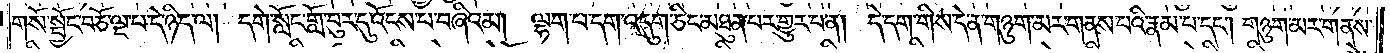གསོ་སྦྱོང་བཅོ་ལྔ་པ་དེ་ཉིད་ལ། དགེ་སློང་གློ་བུར་དུ་འོངས་པ་བཞིའམ། ལྷག་པ་དག་འདུག་ཅིང་མཐུན་པར་གྱུར་པ་ན། དེ་དག་གིས་དེ་ན་གཉུག་མར་གནས་པའི་རྣམ་པ་དང༌། གཉུག་མར་གནས་
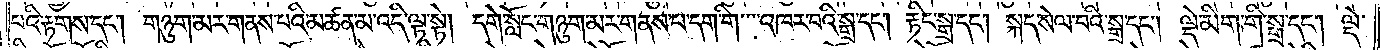པའི་རྟགས་དང༌། གཉུག་མར་གནས་པའི་མཚན་མ་འདི་ལྟ་སྟེ། དགེ་སློང་གཉུག་མར་གནས་པ་དག་གི་འཁར་བའི་སྒྲ་དང༌། རྟིང་སྒྲ་དང༌། སྐད་སེལ་བའི་སྒྲ་དང༌། ལྡེ་མིག་གི་སྒྲ་དང༌། ལྡེ་
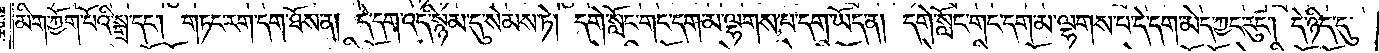མིག་ཀྱོག་པོའི་སྒྲ་དང༌། གཏང་རག་དག་ཐོས་ན། དེ་དག་འདི་སྙམ་དུ་སེམས་ཏེ། དགེ་སློང་གང་དག་མ་ལྷགས་པ་དག་ཡོད་ན། དགེ་སློང་གང་དག་མ་ལྷགས་པ་དེ་དག་མེད་ཀྱང་རུང༌། དེ་ཉིད་དུ་
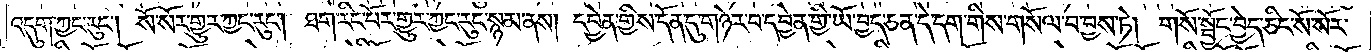འདུག་ཀྱང་རུང༌། སོ་སོར་གྱུར་ཀྱང་རུང༌། ཐག་རིང་པོར་གྱུར་ཀྱང་རུང་སྙམ་ནས། དབྱེན་གྱིས་དོན་དུ་གཉེར་བ་དབྱེན་གྱི་ཡོ་བྱད་ཅན་དེ་དག་གིས་གསོལ་བ་བྱས་ཏེ། གསོ་སྦྱོང་བྱེད་ཅིང་སོ་སོར་
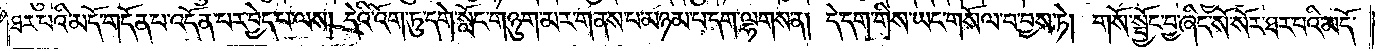ཐར་པའི་མདོ་གདོན་པ་འདོན་པར་བྱེད་པ་ལས། དེའི་འོག་ཏུ་དགེ་སློང་གཉུག་མར་གནས་པ་མཉམ་པ་དག་ལྷགས་ན། དེ་དག་གིས་ཡང་གསོལ་བ་བྱས་ཏེ། གསོ་སྦྱོང་བྱ་ཞིང་སོ་སོར་ཐར་པའི་མདོ་
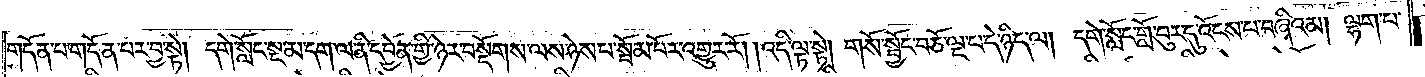གདོན་པ་གདོན་པར་བྱ་སྟེ། དགེ་སློང་སྔ་མ་དག་ལ་ནི་དབྱེན་གྱི་ཉེར་བསྡོགས་ལས་ཉེས་པ་སྦོམ་པོར་འགྱུར་རོ། །འདི་ལྟ་སྟེ། གསོ་སྦྱོང་བཅོ་ལྔ་པ་དེ་ཉིད་ལ། དགེ་སློང་གློ་བུར་དུ་འོངས་པ་བཞིའམ། ལྷག་པ་
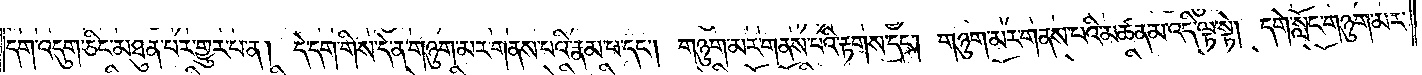དག་འདུག་ཅིང་མཐུན་པར་གྱུར་པ་ན། དེ་དག་གིས་དེ་ན་གཉུག་མར་གནས་པའི་རྣམ་པ་དང༌། གཉུག་མར་གནས་པའི་རྟགས་དང༌། གཉུག་མར་གནས་པའི་མཚན་མ་འདི་ལྟ་སྟེ། དགེ་སློང་གཉུག་མར་
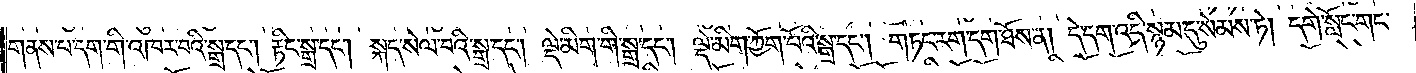གནས་པ་དག་གི་འཁར་བའི་སྒྲ་དང༌། རྟིང་སྒྲ་དང༌། སྐད་སེལ་བའི་སྒྲ་དང༌། ལྡེ་མིག་གི་སྒྲ་དང༌། ལྡེ་མིག་ཀྱོག་པོའི་སྒྲ་དང༌། གཏང་རག་དག་ཐོས་ན། དེ་དག་འདི་སྙམ་དུ་སེམས་ཏེ། དགེ་སློང་གང་
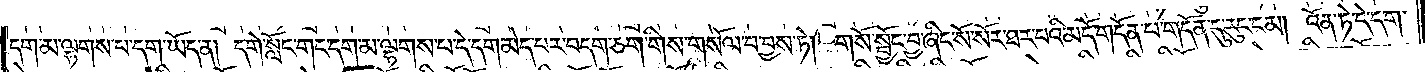དག་མ་ལྷགས་པ་དག་ཡོད་ན། དགེ་སློང་གང་དག་མ་ལྷགས་པ་དེ་དག་མེད་པར་བདག་ཅག་གིས་གསོལ་བ་བྱས་ཏེ། གསོ་སྦྱོང་བྱ་ཞིང་སོ་སོར་ཐར་པའི་མདོ་གདོན་པ་གདོན་དུ་རུང་ངམ། འོན་ཏེ་དེ་དག་
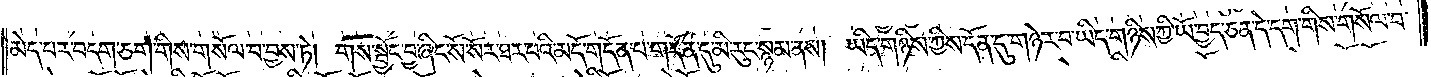མེད་པར་བདག་ཅག་གིས་གསོལ་བ་བྱས་ཏེ། གསོ་སྦྱོང་བྱ་ཞིང་སོ་སོར་ཐར་པའི་མདོ་གདོན་པ་གདོན་དུ་མི་རུང་སྙམ་ནས། ཡིད་གཉིས་ཀྱིས་དོན་དུ་གཉེར་བ་ཡིད་གཉིས་ཀྱི་ཡོ་བྱད་ཅན་དེ་དག་གིས་གསོལ་བ་
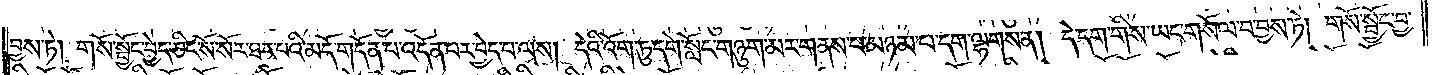བྱས་ཏེ། གསོ་སྦྱོང་བྱེད་ཅིང་སོ་སོར་ཐར་པའི་མདོ་གདོན་པ་འདོན་པར་བྱེད་པ་ལས། དེའི་འོག་ཏུ་དགེ་སློང་གཉུག་མར་གནས་པ་མཉམ་པ་དག་ལྷགས་ན། དེ་དག་གིས་ཡང་གསོལ་བ་བྱས་ཏེ། གསོ་སྦྱོང་བྱ་
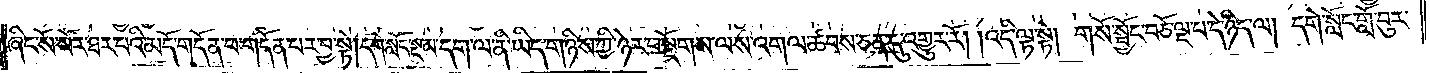ཞིང་སོ་སོར་ཐར་པའི་མདོ་གདོན་པ་གདོན་པར་བྱ་སྟེ། དགེ་སློང་སྔ་མ་དག་ལ་ནི་ཡིད་གཉིས་ཀྱི་ཉེར་བསྡོགས་ལས་འགལ་ཚབས་ཅན་དུ་འགྱུར་རོ། །འདི་ལྟ་སྟེ། གསོ་སྦྱོང་བཅོ་ལྔ་པ་དེ་ཉིད་ལ། དགེ་སློང་གློ་བུར་
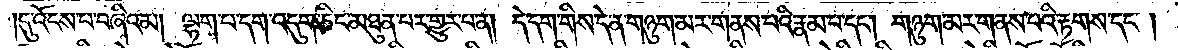དུ་འོངས་པ་བཞིའམ། ལྷག་པ་དག་འདུག་ཅིང་མཐུན་པར་གྱུར་པ་ན། དེ་དག་གིས་དེ་ན་གཉུག་མར་གནས་པའི་རྣམ་པ་དང༌། གཉུག་མར་གནས་པའི་རྟགས་དང༌།
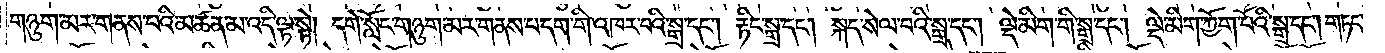གཉུག་མར་གནས་པའི་མཚན་མ་འདི་ལྟ་སྟེ། དགེ་སློང་གཉུག་མར་གནས་པ་དག་གི་འཁར་བའི་སྒྲ་དང༌། རྟིང་སྒྲ་དང༌། སྐད་སེལ་བའི་སྒྲ་དང༌། ལྡེ་མིག་གི་སྒྲ་དང༌། ལྡེ་མིག་ཀྱོག་པོའི་སྒྲ་དང༌། གཏང་
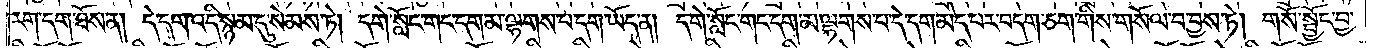རག་དག་ཐོས་ན། དེ་དག་འདི་སྙམ་དུ་སེམས་ཏེ། དགེ་སློང་གང་དག་མ་ལྷགས་པ་དག་ཡོད་ན། དགེ་སློང་གང་དག་མ་ལྷགས་པ་དེ་དག་མེད་པར་བདག་ཅག་གིས་གསོལ་བ་བྱས་ཏེ། གསོ་སྦྱོང་བྱ་
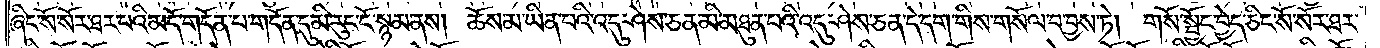ཞིང་སོ་སོར་ཐར་པའི་མདོ་གདོན་པ་གདོན་དུ་མི་རུང་ངོ་སྙམ་ནས། ཆོས་མ་ཡིན་པའི་འདུ་ཤེས་ཅན་མི་མཐུན་པའི་འདུ་ཤེས་ཅན་དེ་དག་གིས་གསོལ་བ་བྱས་ཏེ། གསོ་སྦྱོང་བྱེད་ཅིང་སོ་སོར་ཐར་
